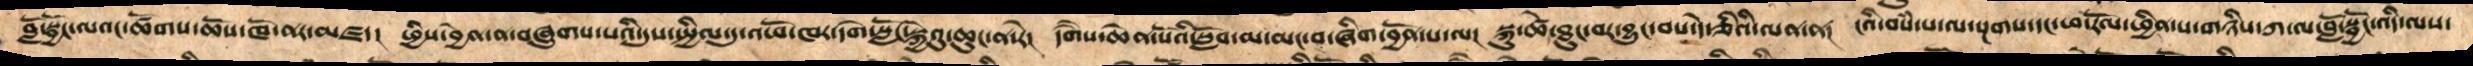བློ་སྦྱོང་ལའང་ཚོགས་ཆོས་ཁོ་ནར་མཛད།  ཕྱིས་བྱེན་ན་བཞུགས་པའི་དུས་སྤྱིལ་དུ་འཕོ་ཁར་དགེ་སློང་སྐྱེའུ་ཆུང་ན་རེ།  དགཻས་ཆེན་པོའི་སློབ་མ་མང་བ་ཞིག་བྱོན་པ་ལ།  སྐུ་ཚེ་ཐུང་བར་བྱུང་བས་དེ་ཅིའི་ལན་ན། ངའི་བསཾ་པ་ལ་སྔགས་དང་ཕ་རོལ་ཕྱིན་པ་གཉིས་ཀ་ལ་བློ་སྦྱོང་འདི་ལས་
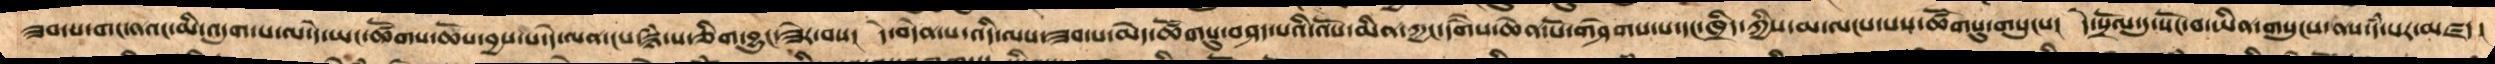ཟབ་པ་གང་ནའང་མི་འདུག་པ་ལ་དེ་ཡང་ཚོགས་ཆོས་བྱས་པ་དེ་ལན་ངས་སྙཾ་པ་ཅིག་བྱུང་ཟེར་བས།  དེ་བདེན་པ་འདི་ལས་ཟབ་པ་མེད་ཚོགསུ་བཤད་པའི་འོས་མིན་ཀྱང་དགཻས་ཆེན་པོ་གཤེགས་པ་དང་ཁྲིད་ཀྱིས་མ་ལངས་པས་ཚོགསུ་གསུངས།  དེ་སྲོལ་དུ་སོང་བ་ཡིན་གསུངས་ནས་དཾ་པར་མཛད།
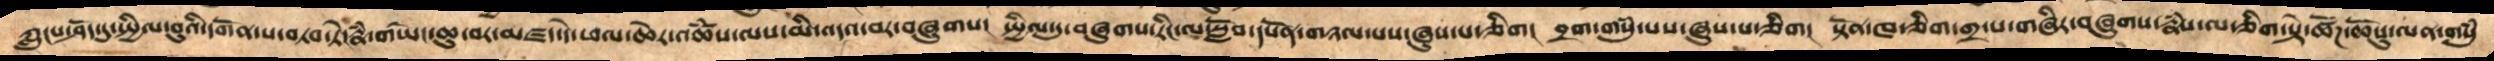ཀླུངས་ཤོད་དུ་སྤྱིལ་བུའི་དགོན་པ་བཏབ་ཏེ་རྣཾ་གཡེང་ཆུ་བར་མཛད་དེ་ཕལ་ཆེར་འཚཾས་ལས་མི་འདའ་བར་བཞུགས།  སྤྱིལ་དུ་བཞུགས་རིང་ལ་སློབ་དཔོན་གཉལ་པས་ཞུས་པ་ཅིག།  བྲག་གསུཾ་པས་ཞུས་པ་ཅིག།  སྟོན་ཁ་ཅིག་གྲ་པ་གཞིར་བཞུགས་རྣཾས་ལ་ཅིག་སྟེ་ཚོཌ་ཆོསུ་ལན་གསུཾ
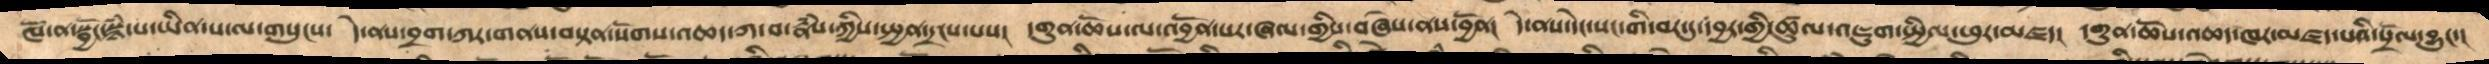ཁོ་ན་སྦྱོང་སྙཾ་པ་ཡིན་པ་ལ་གསུངས་  དེ་ནས་བྲག་ཀར་གནས་བསྟན་སོགས་འཆད་ཀ་བ་རྣཾས་ཀྱིས་སྤྱན་དྲངས་པས།  དགུན་ཆོས་ལ་འབྱོན་པར་ཞལ་གྱིས་བཞེས་ནས་བྱོན།   དེ་ནས་དེང་སང་གི་བར་དུ་དབྱར་གྱི་ཚུལ་འཇུག་སྤྱིལ་ཕུར་མཛད།  དགུན་ཆོས་འཆད་ཁར་མཛད་པའི་སྲོལ་བྱུང་།
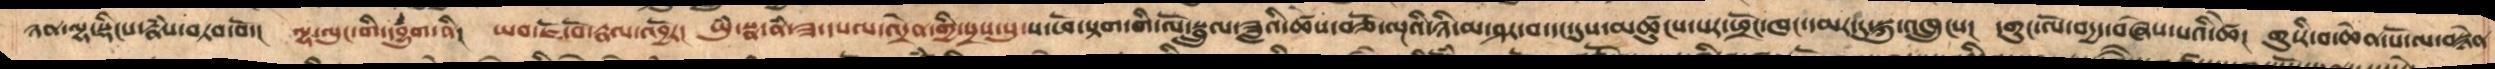ཉན་ལྷ་སྡིངས་རྣཾས་བཏབ་བོ་།  ལྷ་ལུང་གི་དབྱུཾག་ནི།   ཡབ་ཇོ་བོ་རྣལ་འབྱོར།   ཡུཾ་སྣ་ནཾ་ཟ་དཔལ་འདྲེན་གྱི་སྲས་སུ་ས་ཕོ་སྟག་གི་ལོ་སྦྲུལ་ཟླའི་ཚེས་བཅོ་ལྔའི་ཉི་མ་ཤར་བ་དང་དུས་མཚུངས་པར་ཕྲོང་ཁང་དམར་དུ་སྐུ་འཁྲུངས།  དགུང་ལོ་བདྱད་བཞེས་པའི་ཚེ།   གུ་རི་བ་ཆེན་པོ་ལ་བསྙེན
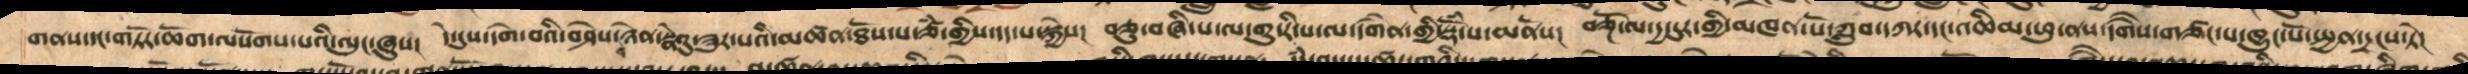གནས་དང་གཏོར་ཆོག་ལསོགས་པའི་ལུང་ཞུས།  དེ་དུས་དགེེ་བའི་བཤེས་ཉེན་སྣེའུ་ཟུར་པའི་མཚན་ཐོས་པ་ཙཾ་གྱིས་དད་པ་སྐྱེས།  བཅུ་བཞི་པ་ལ་གུ་རི་པ་ལ་དགཻན་གྱི་སྡོཾ་པ་མནོས།  བཅྔོ་ལ་དྱ་དུར་གྱི་མཁན་པོ་ཀྲུབ་དཀར་དང་འཆིམ་ཕུ་ནས་དགཻས་གཙང་པ་ཁྱུང་པོ་སྤྱན་དྲངས་ཏེ།
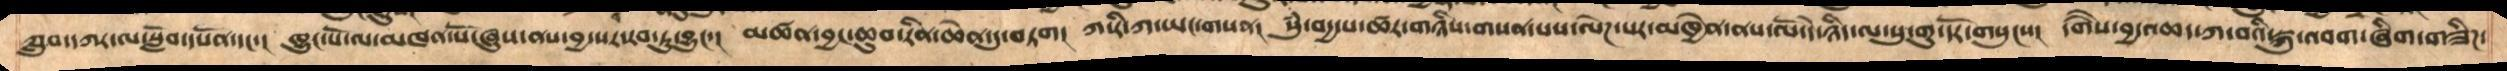ཀླབ་དཀར་ལ་སློབ་དཔོན་དང་།  ཁྱུང་པོ་ལ་མཁན་པོ་ཞུས་ནས་བྱ་སར་རབ་ཏུ་བྱུང་།  མཚན་བྱང་ཆུབ་རིན་ཆེན་དུ་བཏག།  ཀ་རི་ཀ་ཡང་གསན།  སུཾ་བདྱ་པ་ཚར་གཉིས་གསན་པས་ལེཌ་པར་མཁྱེན་ནས་ལོ་དེ་ཉིད་ལ་སུ་གུ་དོར་གསུངས།  དགཻས་བྱ་འཆད་ཀ་བའི་སྐུ་འབག་ཞིག་གཟིཌ་
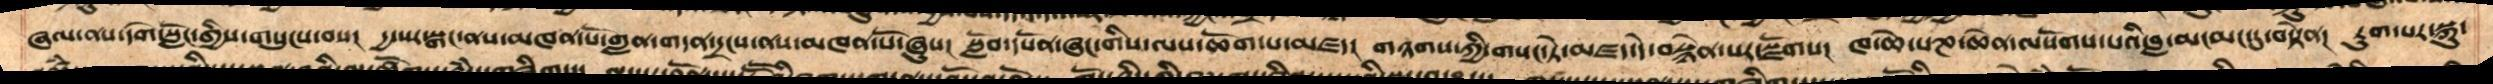ཞལ་ནས་དགེ་སློང་གྱིས་གསུངས་བས།  དྱ་སར་སྒང་ནས་མཁན་པོ་གླན་གདན་དྲངས་ནས་མཁན་པོ་ཞུས།  སློབ་དཔོན་ཞང་གིས་ལས་ཆོག་པ་མཛད།  གཉགས་ཀྱི་གསང་ཏེ་མཛད་དེ་བསྙེན་པར་སྫོགས།  ཁ་ཆེ་པཎ་ཆེན་ལསོགས་པའི་བླ་མ་མང་དུ་བསྟེན། རུག་པར་སྐུ་
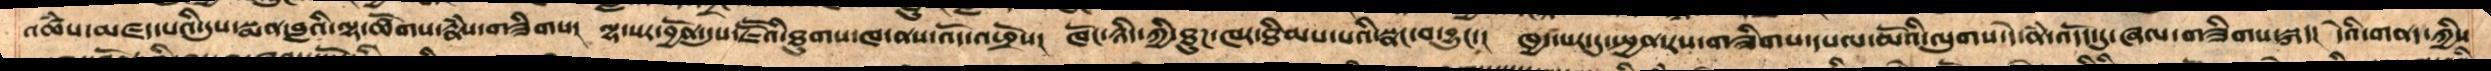འཚཾས་མཛད་པའི་དུས་སྨན་བླའི་ལྷ་ཚོགས་རྣཾས་གཟིགས།  ལྷ་སར་བྱོན་དུས་ཇཽའིཐུགས་ཁ་ནས་འོད་འཕྲོས།  ཁོང་ཉིད་ཀྱི་ཐུཌ་ཁར་ཐིམས་པའི་སྣང་བ་བྱུང། ཁྱད་པར་དུ་སྤྱན་རས་གཟིགས་དཔལ་མོའི་ལུགས་དེ་ནཾ་འདོད་དུ་ཞལ་གཟིགས་སྐད། དེའི་གནད་ཀྱིས
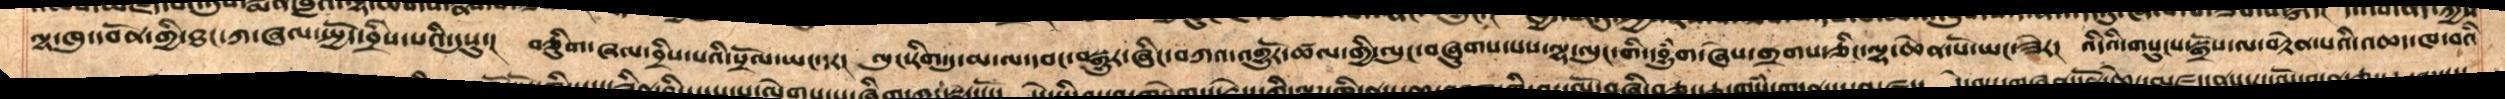ལྷ་ཁུ་དབོན་གྱི་ཐང་ཀ་ཞལ་སྤྱོད་བྲིས་པའི་དུསུ་།  བཅིུག་ཞལ་བྲིས་པའི་སྲོལ་ཡང་དར།  ལུང་རིག་དུ་མ་ལ་དབང་བསྒྱུར་ཞིང་བཀའ་འགྱུརོ་ཚལ་གྱི་ལུང་བཞུགས་པས་ལྷ་ལུང་གི་དབྱུཾག་ཞེས་གྲགས་ཅིང་ལྷ་ཆེན་པོ་ཡང་ཟེར།  འདིའི་གསུངས་སྒྲོས་ལ་བརྟེན་པའི་འཆད་ཁ་བའི
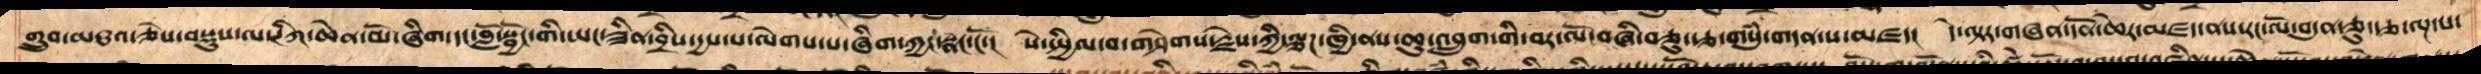གྲུབ་མཐའ་ཅེས་བསྡུས་ལ་ཊིཀ་ཆེན་མོ་ཞིག་དང་བློ་སྦྱོང་གི་ཡང་ཟིན་བྲིས་དྱས་པ་ལེགས་པ་ཅིག་ཀྱང་སྣང་ངོ་།  སེ་སྤྱིལ་བ་གཤེགས་རྗེས་ཀྱི་ལྕཌ་ཁྱི་ནས་ཆུ་འབྲུག་གི་བར་ལོ་བཞི་བཅུ་རྩ་གསུཾ་གདན་ས་མཛད།  དེ་ལྟར་གཞན་དོན་ཆེར་མཛད་ནས་རང་ལོ་བདུན་ཅུ་རྩ་ལྔ་པ
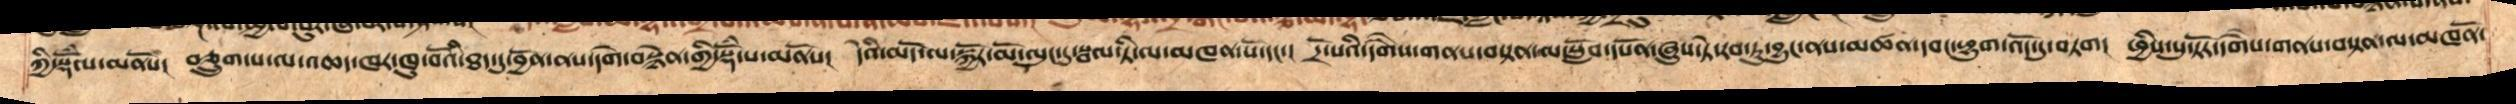ཀྱི་སྡོཾ་པ་མནོས།  བཅྲུག་པ་ལ་འཆད་ཁར་ཁུ་བོའི་ཐད་དུ་བྱོན་ནས་དགེ་བསྙེན་གྱི་སྡོཾ་པ་མནོས།  དེའི་མདོ་ལ་སྐྱོར་མོ་ལུང་དུ་སྦལ་ཏི་ལ་མཁན་པོ་དང་།  དྲོད་པའི་དགཻས་གནས་བསྟན་ལ་སློབ་དཔོན་ཞུས་ཏེ་རབ་ཏུ་བྱུང་ནས་མཚན་དབང་ཕྱུག་འོད་དུ་བཏག།  ཕྱིས་སུ་སྟོར་དགཻས་གནས་བསྟན་ལ་མཁནོ་
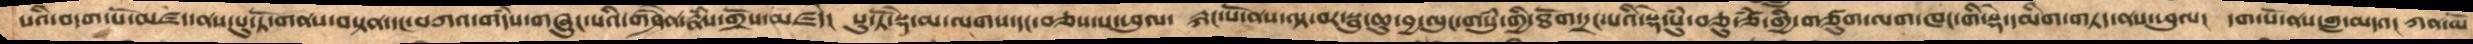པའི་བདག་པོ་མཛད་པུ་ཏོ་གནས་བསྟན་དང་བཀའ་གདཾས་གཞུང་པའི་གཤཻན་རྣཾས་གྲོས་མཛདེ།  པུ་ཏོ་སྡེ་མ་ལགས་དང་བཅས་པ་ཕུལ།  ཀོང་པོ་ནས་ལྟ་བར་སྦུ་ཆུ་བྱང་ལུང་གསུཾ་གྱི་ཐོག་དྲང་པའི་སྡེ་སུཾ་ཅུ་ཙཾ་གྱིས་གཙུག་ལག་ཁང་གི་ལྡེ་དམིག་གཏད་ནས་ཕུལ།  དག་པོ་ནས་གླ་མདའ།  ཀན་མོ
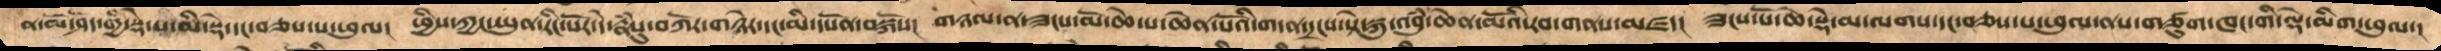ན་མོ་ཤོད་གྱི་སྡེ་པ་མི་སྡེ་དང་བཅས་པ་ཕུལ།  ཕྱིས་ཀྱང་ཡུན་རིང་པོར་དེ་རྣཾསུ་བཀོར་གཉེར་དང་མི་དཔོན་བསྐོས།  གཉལ་ན་ཟངས་མོ་ཆེ་པ་ཆེན་པོའི་གདན་དྲངས་ཏེ་སྐུ་འབུཾ་ཆེན་མོའི་རབ་གནས་མཛད།  ཟངས་པོ་ཆེ་སྡེ་མ་ལགས་དང་བཅས་པ་ཕུལ་ནས་གཙུག་ཁང་གི་ལྡེ་མིག་ཕུལ་།
